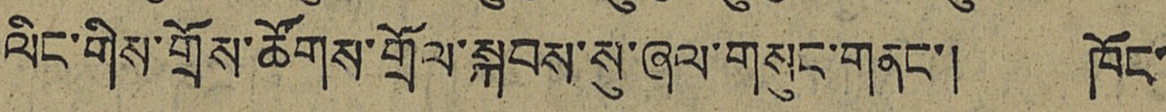ལིང་གིས་གྲོས་ཚོགས་གྲོལ་སྐབས་སུ་ཞལ་གསུང་གནང་། ཁོང་
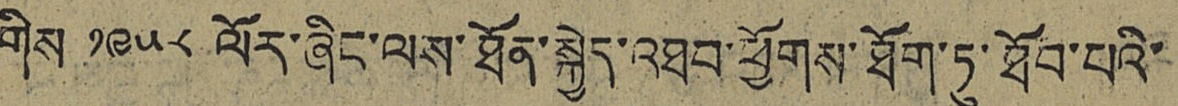གིས ༡༩༥༨ ལོར་ཞིང་ལས་ཐོན་སྐྱེད་འཐབ་ཕྱོགས་ཐོག་ཏུ་ཐོབ་པའི་
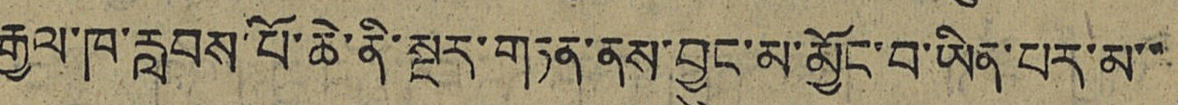རྒྱལ་ཁ་རླབས་པོ་ཆེ་ནི་སྔར་གཏན་ནས་བྱུང་མ་མྱོང་བ་ཡིན་པར་མ་་
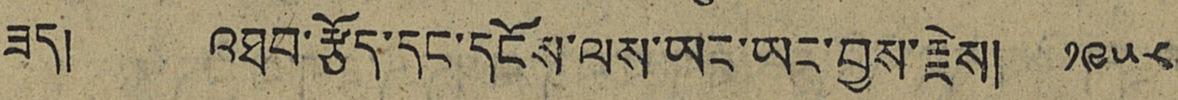ཟད། འཐབ་རྩོད་དང་དངོས་ལས་ཡང་ཡང་བྱས་རྗེས། ༡༩༥༨
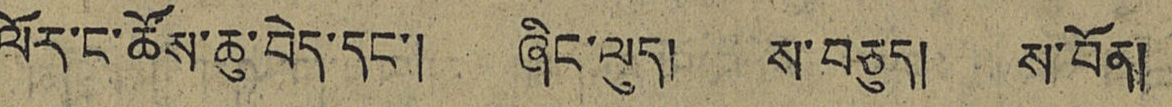ལོར་ང་ཚོས་ཆུ་བེད་དང་། ཞིང་ལུད། ས་བཅུད། ས་བོན།
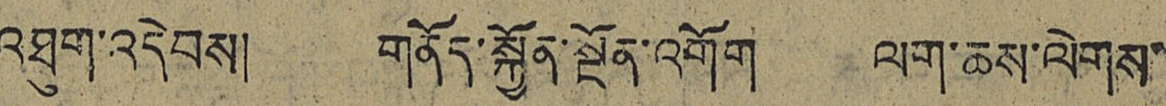འཐུག་འདེབས། གནོད་སྐྱོན་སྔོན་འགོག ལག་ཆས་ལེགས་
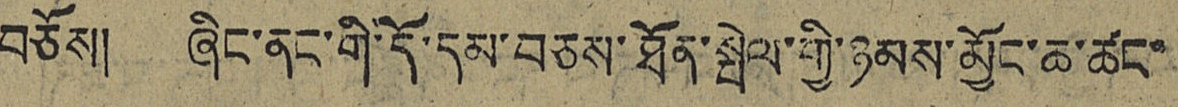བཅོས། ཞིང་ནང་གི་དོ་དམ་བཅས་ཐོན་སྤེལ་གྱི་ཉམས་མྱོང་ཆ་ཚང་
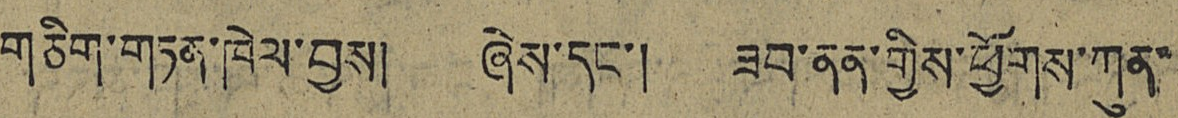གཅིག་གཏན་ཁེལ་བྱས། ཞེས་དང་། ཟབ་ནན་གྱིས་ཕྱོགས་ཀུན་
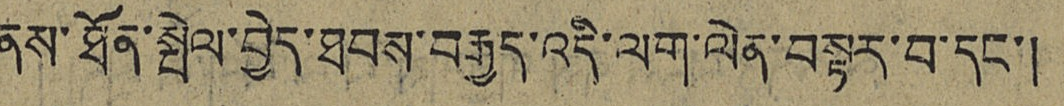ནས་ཐོན་སྤེལ་བྱེད་ཐབས་བརྒྱད་འདི་ལག་ལེན་བསྟར་བ་དང་།
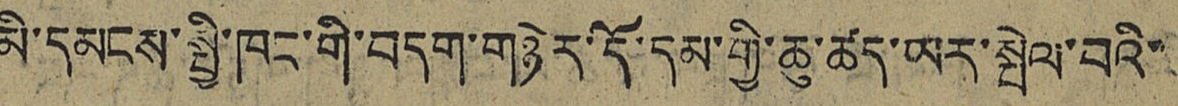མི་དམངས་སྤྱི་ཁང་གི་བདག་གཉེར་དོ་དམ་གྱི་ཆུ་ཚད་ཡར་སྤེལ་བའི་
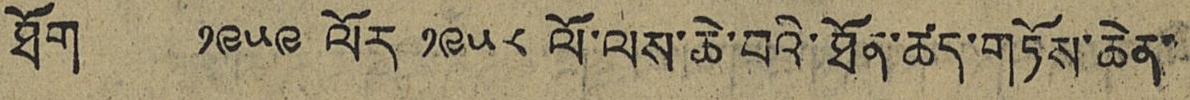ཐོག ༡༩༥༩ ལོར ༡༩༥༨ ལོ་ལས་ཆེ་བའི་ཐོན་ཚད་གཏོས་ཆེན་
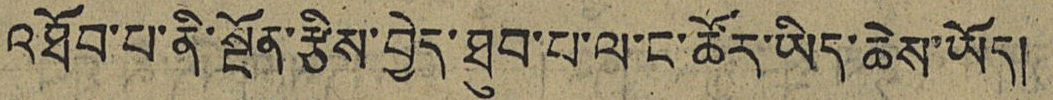འཐོབ་པ་ནི་སྔོན་རྩིས་བྱེད་ཐུབ་པ་ལ་ང་ཚོར་ཡིད་ཆེས་ཡོད།
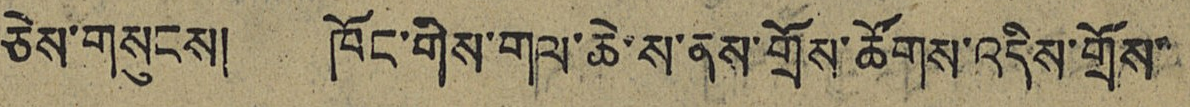ཅེས་གསུངས། ཁོང་གིས་གལ་ཆེ་ས་ནས་གྲོས་ཚོགས་འདིས་གྲོས་
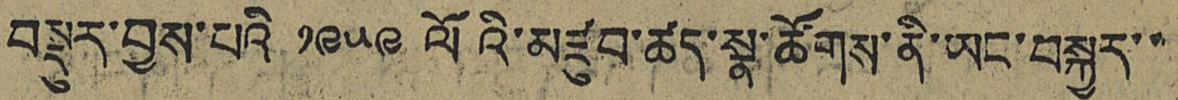བསྡུར་བྱས་པའི ༡༩༥༩ ལོའི་མཛུབ་ཚད་སྣ་ཚོགས་ནི་ཡང་བསྐྱར་་
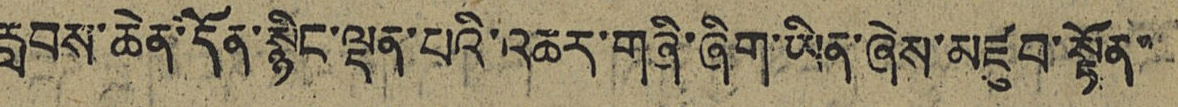རླབས་ཆེན་དོན་སྙིང་ལྡན་པའི་འཆར་གཞི་ཞིག་ཡིན་ཞེས་མཛུབ་སྟོན་
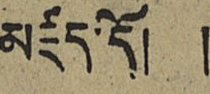མཛད་དོ། །
